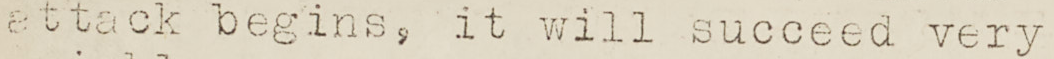attack begins, it will succeed very
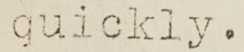quickly
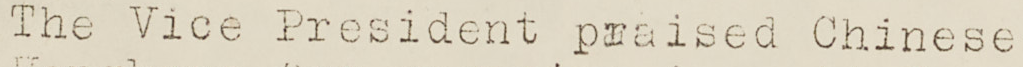The Vice President praised Chinese
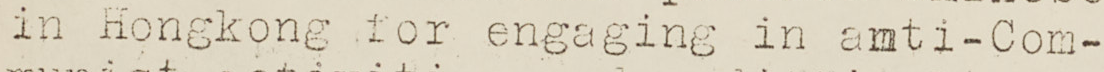in Hongkong for engaging in anti-Com-
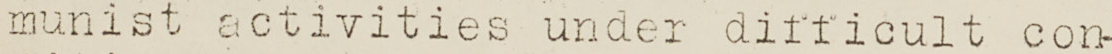munist activities under difficult con-
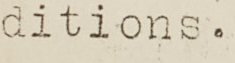ditions.
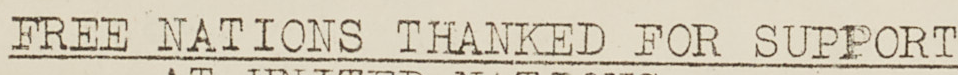FREE NATIONS THANKED FOR SUPPORT
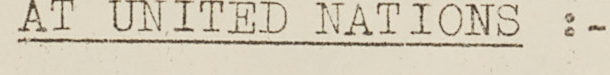AT UNITED NATIONS -
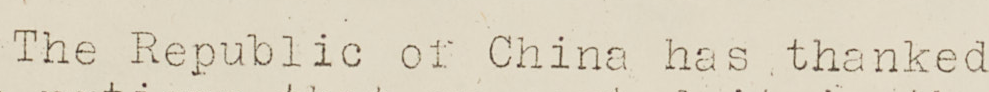The Republic of China has thanked
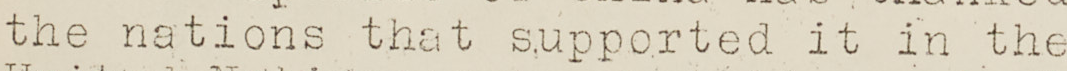the nations that supported it in the
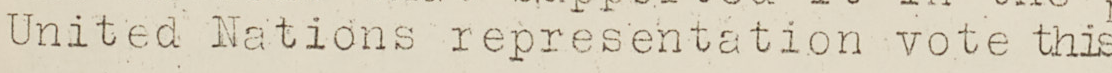United Nations representation vote this
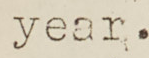year.
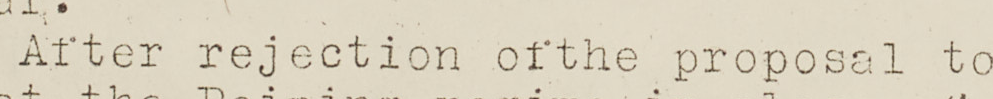After rejection ofthe proposal to
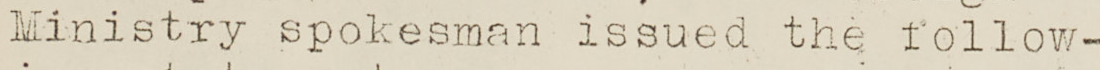Ministry spokesman issued the follow¬
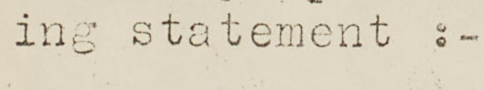ing statement:
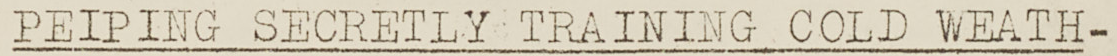PEIPING SECRETLY TRAINING COLD WEATH
